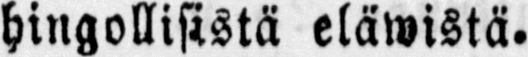hingollisistä eläwistä.
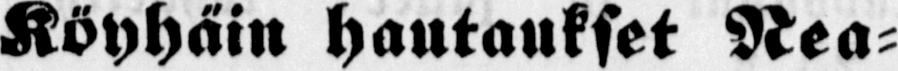Köyhäin hautaukset Nea-
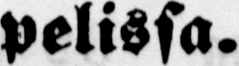pelissä.
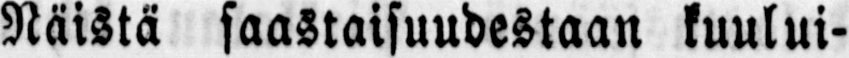Näistä saastaisuudestaan kuului-
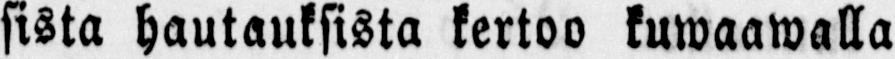sista hautauksista kertoo kuwaawalla
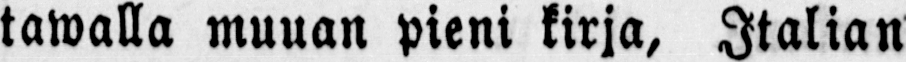tawalla muuan pieni kirja, Italian
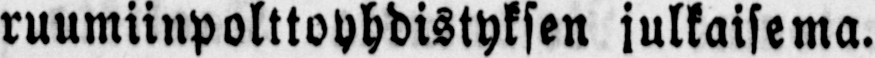ruumiinpolttoyhdistyksen julkaisema.
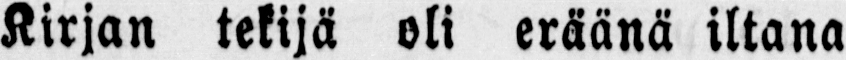Kirjan tekijä oli eräänä iltana
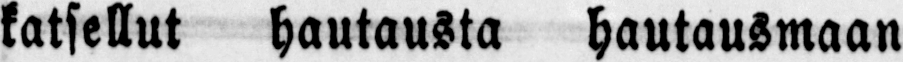katsellut hautausta hautausmaan
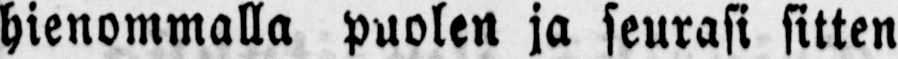hienommalla puolen ja seurasi sitten
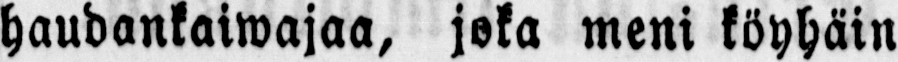haudankaiwajaa, joka meni köyhäin
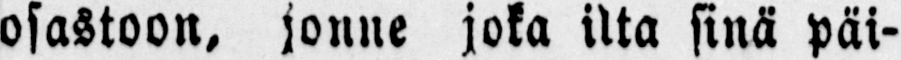osastoon, jonne joka ilta sinä päi-
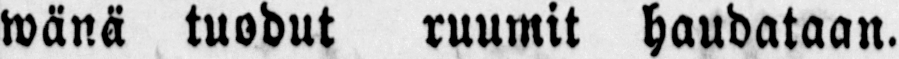wänä tuodut ruumit haudataan.
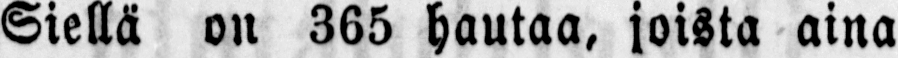Siellä on 365 hautaa, joista aina
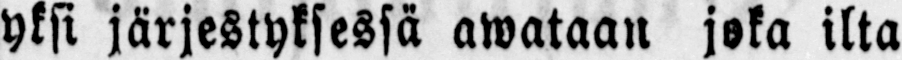Yksi järjestyksessä awataan joka ilta
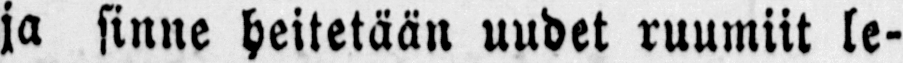ja sinne heitetään uudet ruumiit le-
